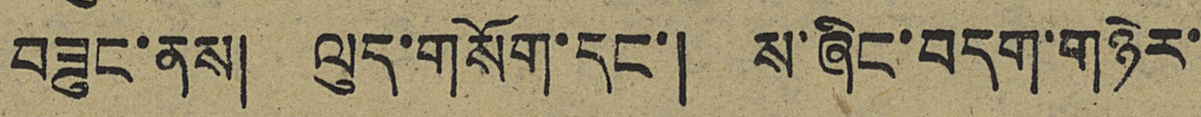བཟུང་ནས། ལུད་གསོག་དང་། ས་ཞིང་བདག་གཉེར་
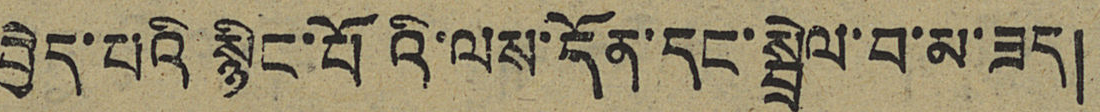བྱེད་པའི སྙིང་པོའི་ལས་དོན་དང་སྤྲེལ་བ་མ་ཟད།
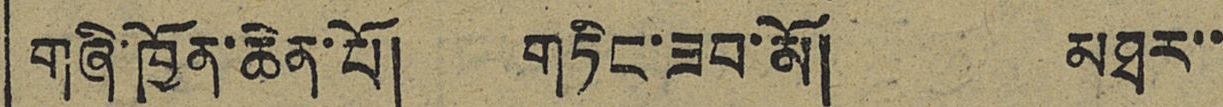གཞི་ཁྱོན་ཆེན་པོ། གཏིང་ཟབ་མོ། མཐར་་
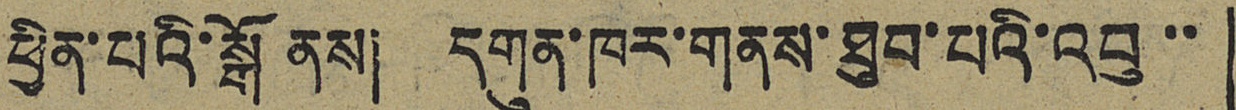ཕྱིན་པའི་སྒོ ནས། དགུན་ཁར་གནས་ཐུབ་པའི་འབུ་་
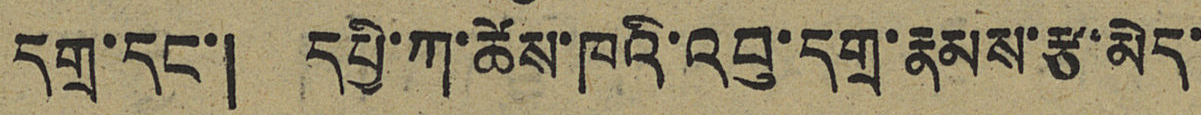དགྲ་དང་། དཔྱི་ཀ་ཚེས་ཁའི་འབུ་དགྲ་རྣམས་རྩ་མེད་
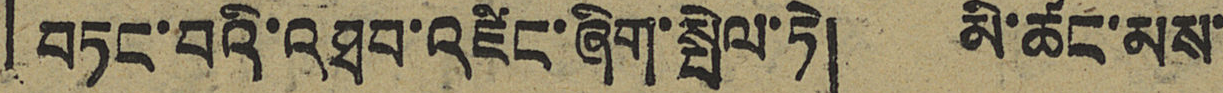བཏང་བའི་འཐབ་འཛིང་ཞིག་སྤེལ་ཏེ། མི་ཚང་མས་
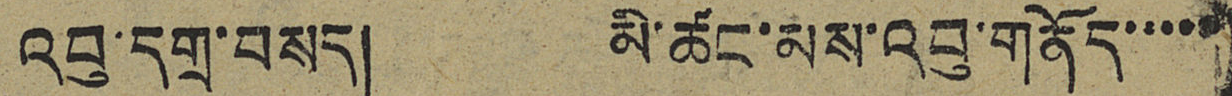འབུ་དགྲ་བསད། མི་ཚང་མས་འབུ་གནོད་་་་་
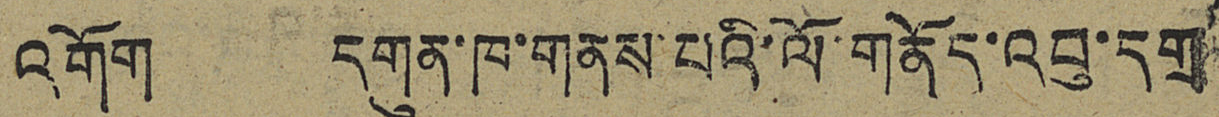འགོག དགུན་ཁག་གནས་པའི་ལོ་གནོད་འབུ་དགྲ་
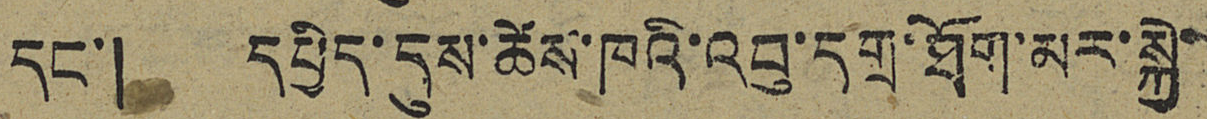དང་། དཔྱིད་དུས་ཚེས་ཁའི་འབུ་དགྲ་ཐོག་མར་སྐྱེ་
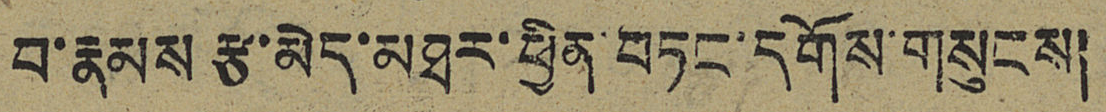བ་རྣམས རྩ་མེད་མཐར་ཕྱིན་བཏང་དགོས་གསུངས།
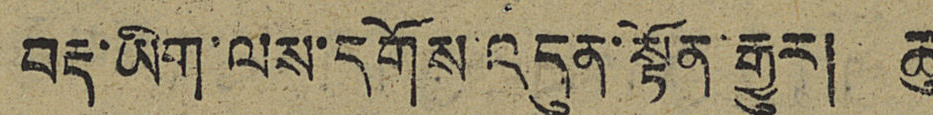བརྡ་ཡིག་ལས་དགོས་འདུན་སྟོན་རྒྱུར། ཆུ་
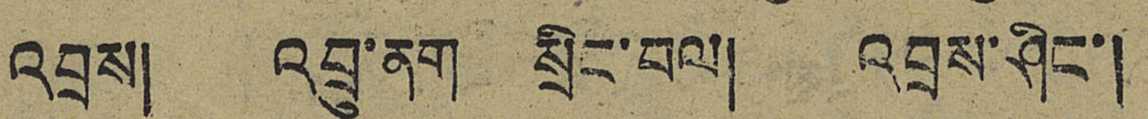འབྲས། འབྲུ་ནག སྲིང་བལ། འབྲས་ཤིང་།
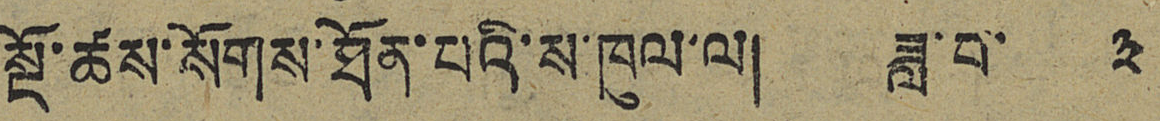སྔོ་ཚས་སོགས་ཐོན་པའི་ས་ཁུལ་ལ། ཟླ་བ་ ༣
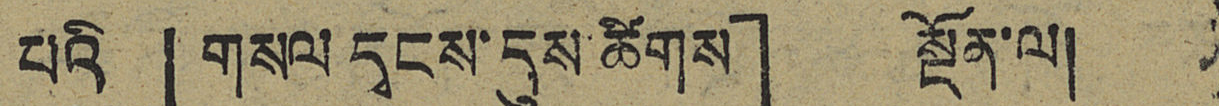པའི་ 「གསལ དྭངས་དུས་ཚིགས」 སྔོན་ལ།
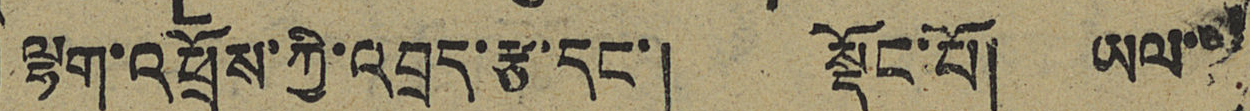ལྷག་འཕྲོས་ཀྱི་འབྲད་རྩ་དང་། སྡོང་པོ། ཡལ་་
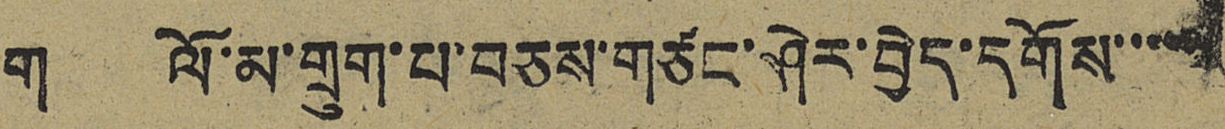ག ལོ་མ་གྲུག་པ་བཅས་གཙང་ཤེར་བྱེད་དགོས་་་་་
